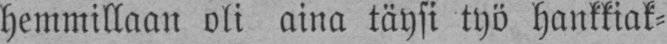hemmillaan oli aina täysi työ hankkiak-
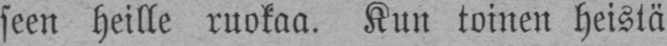seen heille ruokaa. Kun toinen heistä
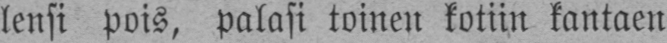lensi pois, palasi toinen kotiin kantaen
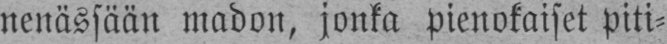nenässään madon, jonka pienokaiset piti-
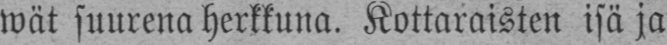wät suurena herkkuna. Kottaraisten isä ja
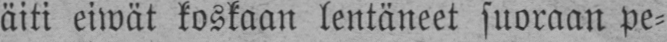äiti eiwät koskaan lentäneet suoraan pe-
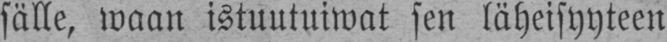sälle, waan istuutuiwat sen läheisyyteen
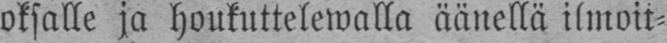oksalle ja houkuttelewalla äänellä ilmoit-
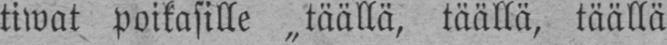tiwat poikasille „täällä, täällä, täällä
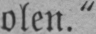olen."
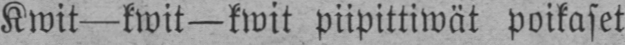Kwit-kiwt-kiwt piipittiwät poikaset
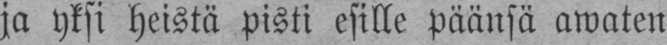ja yksi heistä pisti esille päänsä awaten
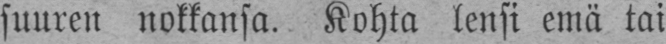suuren nokkansa. Kohta lensi emä tai
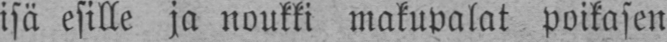isä esille ja noukki makupalat poikasen
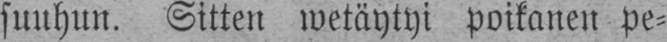suuhun. Sitten wetäytyi poikanen pe-
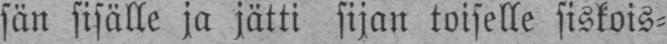sän sisälle ja jätti sijan toiselle siskois-
